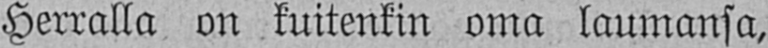Herralla on kuitenkin oma laumansa,
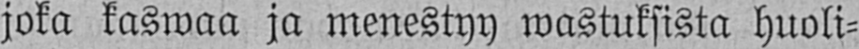joka kaswaa ja menestyy wastuksista huoli-
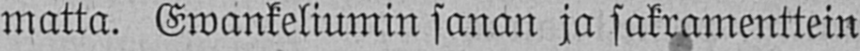matta. Ewankeliumin sanan ja sakramenttein
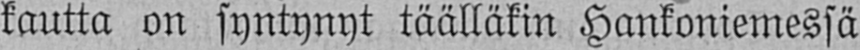kautta on syntynyt täälläkin Hankoniemessä
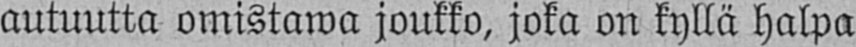autuutta omistawa joukko, joka on kyllä halpa
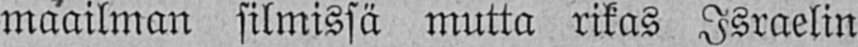maailman silmissä mutta rikas Israelin
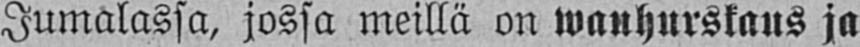Jumalassa, jossa meillä on wanhurskaus ja
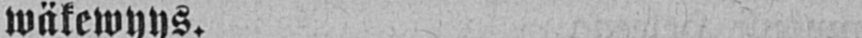wäkewyys.
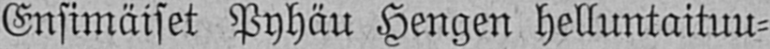Ensimäiset Pyhäu Hengen helluntaituu-
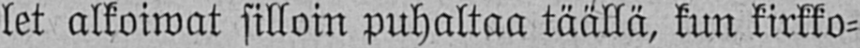let alkoiwat silloin puhaltaa täällä, kun kirkko-
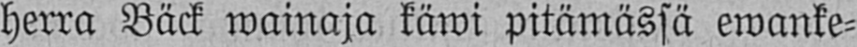herra Bäck wainaja käwi pitämässä ewanke-
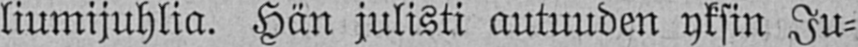liumijuhlia. Hän julisti autuuden yksin Ju-
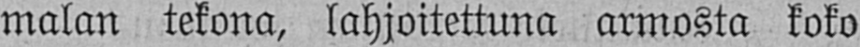malan tekona, lahjoitettuna armosta koko
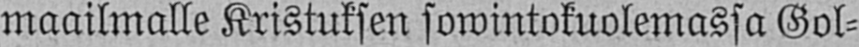maailmalle Kristuksen sowintokuolemassa Gol-
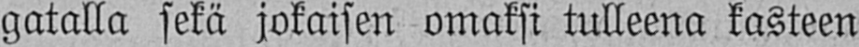gatalla sekä jokaisen omaksi tulleena kasteen
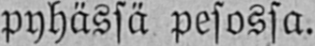pyhässä pesossa.
